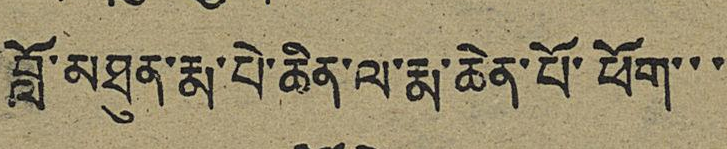བློ་མཐུན་རྨ་པེ་ཆིན་ལ་རྨ་ཆེན་པོ་ཕོག་་་
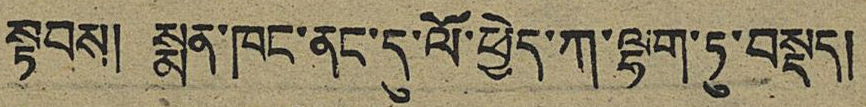སྟབས། སྨན་ཁང་ནང་དུ་ལོ་ཕྱེད་ཀ་ལྷག་ཏུ་བསྡད།
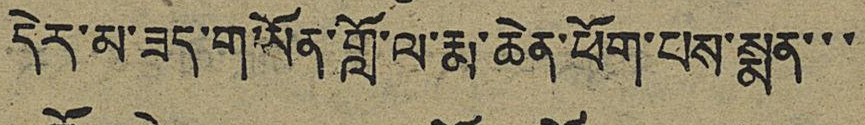དེར་མ་ཟད་གཡོན་གློ་ལ་རྨ་ཆེན་ཕོག་པས་སྨན་་་
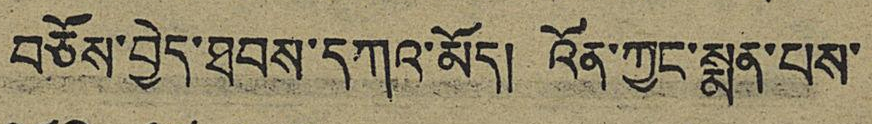བཅོས་བྱེད་ཐབས་དཀའ་མོད། འོན་ཀྱང་སྨན་པས་
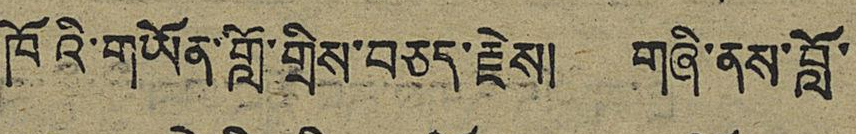ཁོའི་གཡོན་གློ་གྲིས་བཅད་རྗེས། གཞི་ནས་བློ་
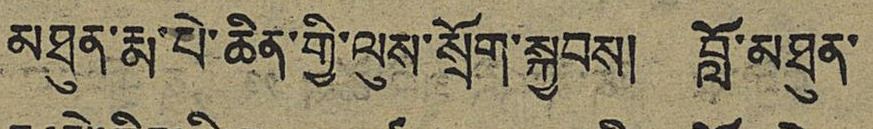མཐུན་རྨ་པེ་ཆིན་གྱི་ལུས་སྲོག་སྐྱབས། བློ་མཐུན་
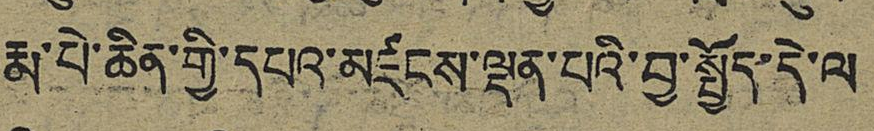རྨ་པེ་ཆིན་གྱི་དཔའ་མཛངས་ལྡན་པའི་བྱ་སྤྱོད་དེ་ལ
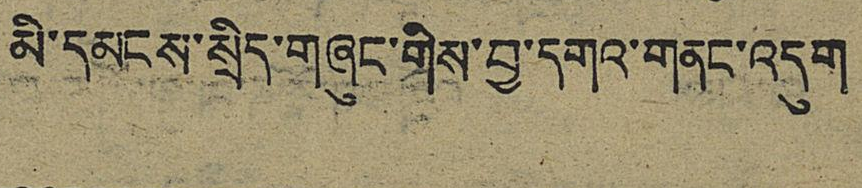མི་དམངས་སྲིད་གཞུང་གིས་བྱ་དགའ་གནང་འདུག
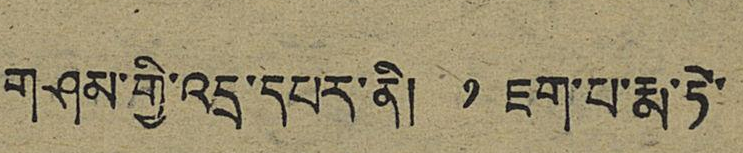གཤམ་གྱི་འདྲ་དཔར་ནི། ༡ ཇག་པ་མ་ཏེ་
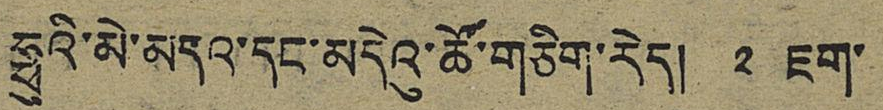ཧྥུའི་མེ་མདའ་དང་མདེའུ་ཚོ་གཅིག་རེད། ༢ ཇག་
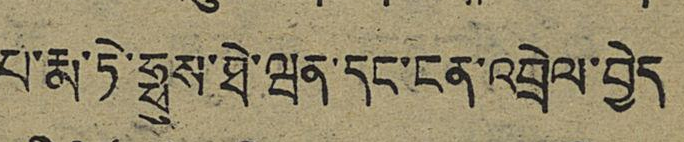པ་རྨ་ཏེ་ཧྥུས་ཐེ་ཝན་དང་ངན་འབྲེལ་བྱེད་
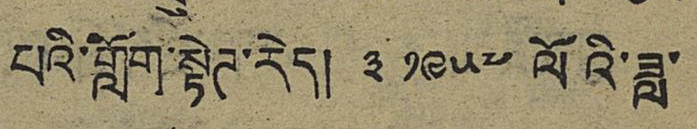པའི་གློག་སྟེཊ་རེད། ༣ ༡༩༥༧ ལོའི་ཟླ་
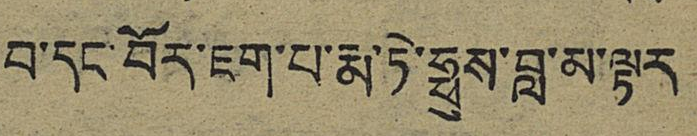བ་དང བོར་ཇག་པ་རྨ་ཏེ་ཧྥུས་བླ་མ་ལྟར
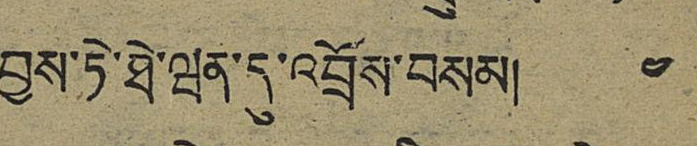བྱས་ཏེ་ཐེ་ཝན་དུ་འབྲོས་བསམ། ༤
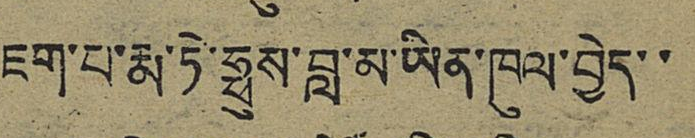ཇག་པ་རྨ་ཏེ་ཧྥུས་བླ་མ་ཡིན་ཁུལ་བྱེད་་
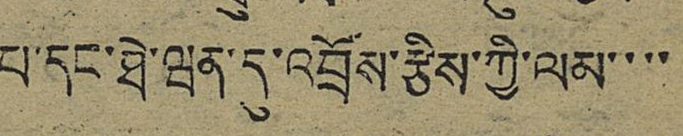པ་དང་ཐེ་ཝན་དུ་འབྲོས་རྩིས་ཀྱི་ལམ་་་་
